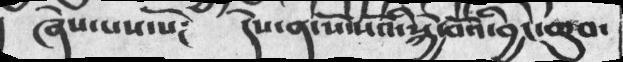ཞེས་པས་སོ༴  དེས་ན་སོ་སོའི་སྐྱེ་བོའི་བྱང་ཆུབ་
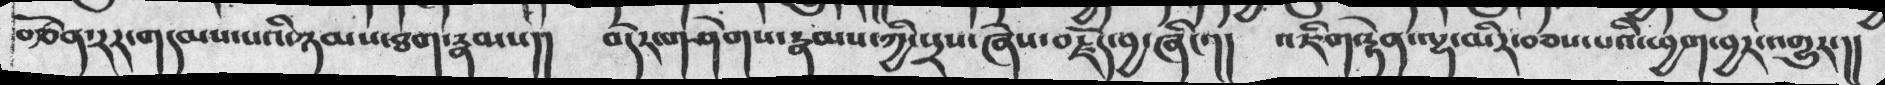བརྩོན་རར་གདམས་པའི་ཉམས་ཐག་རྣམས།།  བདེར་གཤེགས་རྣམས་ཀྱི་སྲས་ཞེས་བརྗོད་བྱ་ཞིང་།།  འཇིག་རྟེན་ལྷ་མིར་བཅས་པའི་ཕྱག་བྱར་འགྱུར་།།
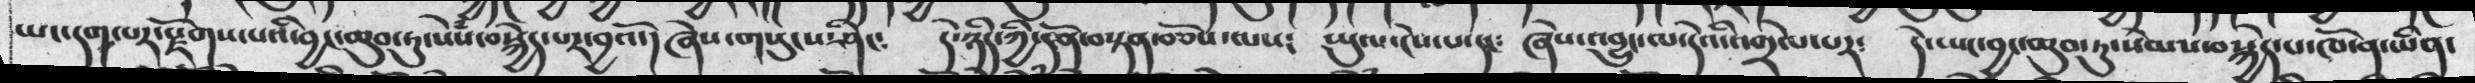ཡང་དག་པར་སྫོགས་པའི་བྱང་ཆུབ་ཏུ་སེཾས་བསྐྱེད་པར་བྱའོ་།  ཞེས་གསུངས་ཤིང༴ དེ་ཉིད་ཀྱི་དོན་བསྟན་བཅོས་ལས༴  ཡུལ་ངེས་པ་དང༴  ཞེས་འབྱུང་ལ་དེའི་འགྲེལ་པར༴  དེ་ཡང་བྱང་ཆུབ་ཏུ་སེམས་བསྐྱེད་པ་ཁོ་ན་ཡིན་
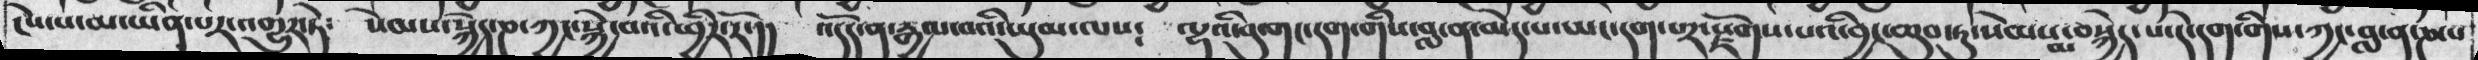ངེས་པ་མ་ཡིན་པར་འགྱུར་ཏེ༴  སེམས་སྐྱེད་ཎ་ཀྱང་སྐྱེ་བའི་ཕྱིར་རོ་།།  འདོད་ན་རྒྱལ་བའི་ཡུལ་ལས༴  ལྷའི་བུ་གང་དག་གིས་བླ་ན་མེད་པ་ཡང་དག་པར་རྫོགས་པའི་བྱང་ཆུབ་ཏུ་སེམས་མ་བསྐྱེད་པ་དེ་དག་གིས་ཀྱང་བླ་ན་ཎ་པ
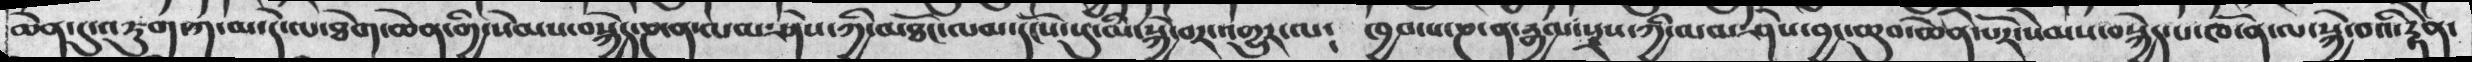ཆེན་དུ་འཇུག་ཀ་མ་དེ་ལ་ཐེག་ཆེན་གྱི་སེམས་བསྐྱེད་ཎ་ན་ལམ་ཤེས་ཀྱི་མཐོང་ལམ་དངོས་སུ་མི་སྐྱེ་བར་འགྱུར་ལ༴ ཁྱབ་པ་ཎ་ན་རྒྱལ་སྲས་ཀྱི་ལམ་ཤེས་བྱང་ཆུབ་ཆེན་པོར་སེམས་བསྐྱེད་པ་ཁོ་ན་ལ་སྐྱེ་བའི་རྟེན་
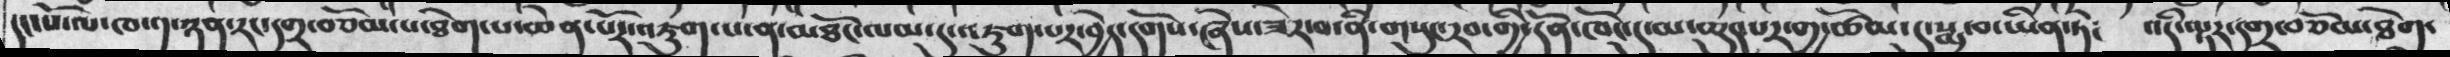དང་པོ་ལ་ཁ་༡་ཉན་རང་དགྲ་བཅོམ་པ་ཐེག་པ་ཆེན་པོར་འཇུག་པ་ན་མཐོང་ལམ་དུ་འཇུག་པར་བྱེད་དགོས་ཞེས་ཟེར་བ་ནི་གསུང་རབ་གྱི་དོན་ཁོང་དུ་མ་ཆུད་པར་གྱ་ཚོམ་དུ་སྨྲ་བ་ཡིན་ཏེ༴ འདི་ལྟར་དགྲ་བཅོམ་ཐེག་
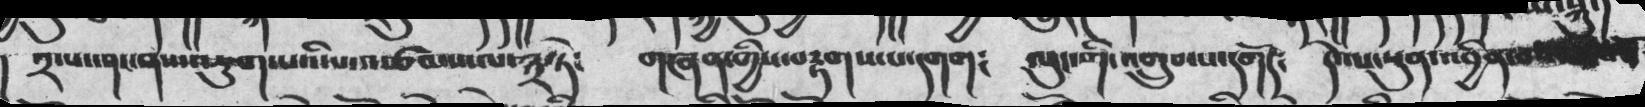༢་པ་ནང་ནས་འཇུག་པའི་པ་འཚམས་ལ་༣་ཏེ་  གཞན་གྱིས་བརྟགས་པ་དགག༴  ལུང་གི་འགྲུབ་པ་དགོད༴  དེ་ལ་སུན་འབྱིན་པ
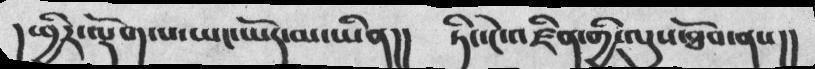།ཕྱིར་ལྡོག་པ་ཡང་ཡོད་མ་ཡིན།། ཏིང་ངེ་འཛིན་གྱི་ལུས་ཐོབས་ནས།།
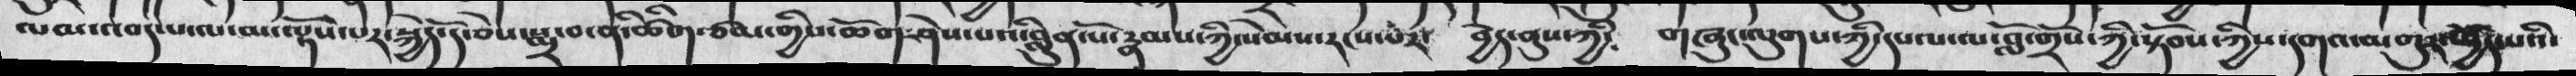ལམ་འབད་པ་ལ་མ་ལྟོས་པར་སྐྱེད་དེ་ཅེས་སྨྲ་བ་ནི་ཚིག་ཙམ་གྱིས་ཆོག་ཤེས་པའི་བླུན་པོ་རྣམས་ཀྱི་སེམས་རངས་པར་ བྱེད་ནུས་ཀྱི༴  གཞུང་ལུགས་ཀྱི་དཔལ་ལ་བློ་གྲོས་ཀྱི་སྟོབས་ཀྱིས་དགའ་མགུར་སྤྱོད་པའི་
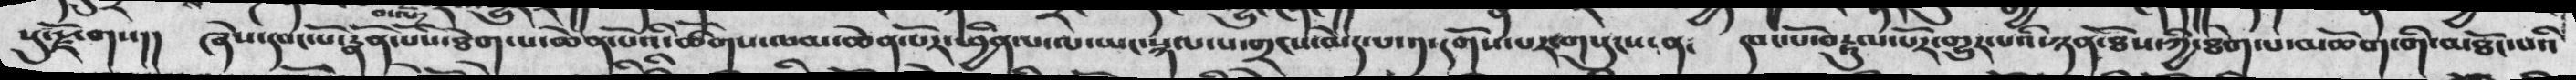སུ་རྫོགས།།  ཞེས་དབང་པོ་རྣོན་པས་ཐེག་པ་ཆེན་པོའི་ཚོགས་ལམ་ཆེན་པོར་པྱིན་པ་ལ་ཡང་སྐལ་པ་གྲངས་མེད་པ་༡་དགོས་པར་གསུངས་ན་  དབང་པོ་བརྟུལ་པོ་གྱུར་བའི་ཉན་ཐོས་ཀྱི་ཐེག་པ་མཆོག་གི་མཐོང་པའི
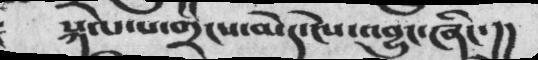སྐལ་པ་གྲངས་མེད་ངེས་འབྱུང་ཞིང་།།
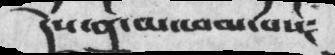དེས་ན་མ་ཕམ་པས༴
